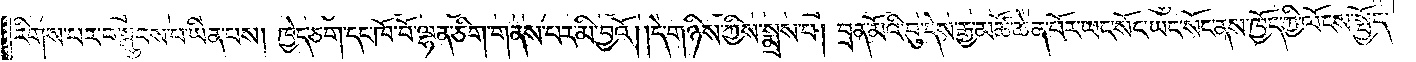རིགས་པར་བསྒྲུབས་པ་ཡིན་པས། ཁྱེད་ཅག་དང་ཁོ་བོ་ལྷན་ཅིག་གནས་པར་མི་བྱའོ། །དེ་གཉིས་ཀྱིས་སྨྲས་པ། བྲན་མོའི་བུ་དེས་རྒྱ་མཚོ་ཆེན་པོར་ཡང་སོང་ཡང་སོང་ནས་ཁྱོད་ཀྱི་ལོངས་སྤྱོད་
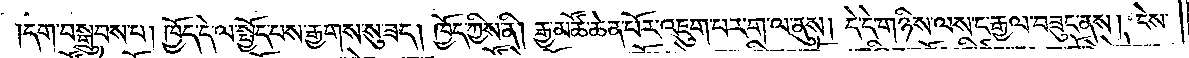དག་བསྒྲུབས་པ། ཁྱོད་དེ་ལ་སྤྱོད་པས་རྒྱགས་སུ་ཟད། ཁྱོད་ཀྱིས་ནི། རྒྱ་མཚོ་ཆེན་པོར་འཇུག་པར་ག་ལ་ནུས། དེ་དེ་གཉིས་ལས་ང་རྒྱལ་བཟུང་ནས། ངེས་
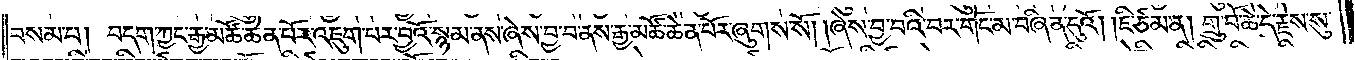བསམ་པ། བདག་ཀྱང་རྒྱ་མཚོ་ཆེན་པོར་འཇུག་པར་བྱའོ་སྙམ་ནས་ཞེས་བྱ་བ་ནས་རྒྱ་མཚོ་ཆེན་པོར་ཞུགས་སོ། །ཞེས་བྱ་བའི་བར་གོང་མ་བཞིན་དུའོ། །ཇི་ཙམ་ན། གྲུ་བོ་ཆེ་དེ་རྗེས་སུ་
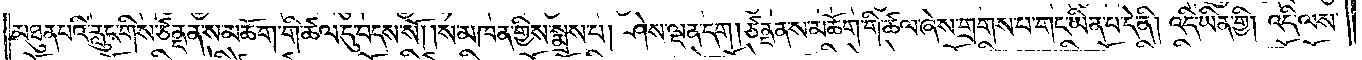མཐུན་པའི་རླུང་གིས་ཙནྡན་ས་མཆོག་གི་ཚལ་དུ་བདས་སོ། །ས་མཁན་གྱིས་སྨྲས་པ། ཤེས་ལྡན་དག །ཙནྡན་ས་མཆོག་གི་ཚལ་ཞེས་གྲགས་པ་གང་ཡིན་པ་དེ་ནི། འདི་ཡིན་གྱི། འདི་ལས་
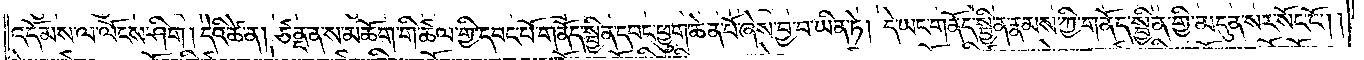འདོམས་ལ་ལོངས་ཤིག །དེའི་ཚེ་ན། ཙནྡན་ས་མཆོག་གི་ཚལ་གྱི་དབང་པོ་གནོད་སྦྱིན་དབང་ཕྱུག་ཆེན་པོ་ཞེས་བྱ་བ་ཡིན་ཏེ། དེ་ཡང་གནོད་སྦྱིན་རྣམས་ཀྱི་གནོད་སྦྱིན་གྱི་མདུན་སར་སོང་ངོ༌། །
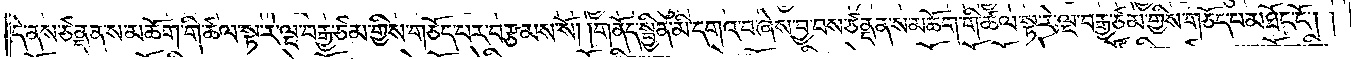དེ་ནས་ཙནྡན་ས་མཆོག་གི་ཚལ་སྟ་རེ་ལྔ་བརྒྱ་ཙམ་གྱིས་གཅོད་པར་བརྩམས་སོ། །གནོད་སྦྱིན་མི་དགའ་བ་ཞེས་བྱ་བས་ཙནྡན་ས་མཆོག་གི་ཚལ་སྟ་རེ་ལྔ་བརྒྱ་ཙམ་གྱིས་གཅོད་པ་མཐོང་ངོ༌། །
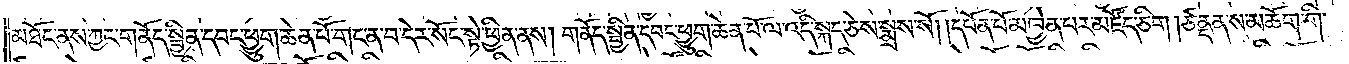མཐོང་ནས་ཀྱང་གནོད་སྦྱིན་དབང་ཕྱུག་ཆེན་པོ་གང་ན་བ་དེར་སོང་སྟེ་ཕྱིན་ནས། གནོད་སྦྱིན་དབང་ཕྱུག་ཆེན་པོ་ལ་འདི་སྐད་ཅེས་སྨྲས་སོ། །དཔོན་པོ་མཁྱེན་པར་མཛོད་ཅིག །ཙནྡན་ས་མཆོག་གི་
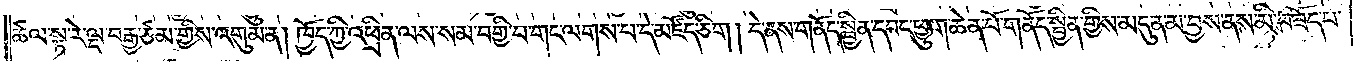ཚལ་སྟ་རེ་ལྔ་བརྒྱ་ཙམ་གྱིས་འགུམ་ན། ཁྱོད་ཀྱི་འཕྲིན་ལས་སམ་བགྱི་བ་གང་ལགས་པ་དེ་མཛོད་ཅིག །དེ་ནས་གནོད་སྦྱིན་དབང་ཕྱུག་ཆེན་པོ་གནོད་སྦྱིན་གྱིས་མདུན་མ་བྱས་ནས་མི་བཟོད་པ་
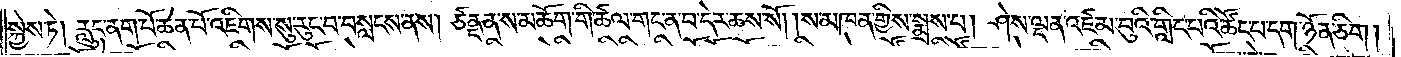སྐྱེས་ཏེ། རླུང་ནག་པོ་ཆེན་པོ་འཇིགས་སུ་རུང་བ་བསླངས་ནས། ཙནྡན་ས་མཆོག་གི་ཚལ་གང་ན་བ་དེར་ཆས་སོ། །ས་མཁན་གྱིས་སྨྲས་པ། ཤེས་ལྡན་འཛམ་བུའི་གླིང་པའི་ཚོང་བ་དག་ཉོན་ཅིག།
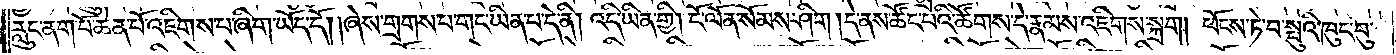རླུང་ནག་པོ་ཆེན་པོ་འཇིགས་པ་ཞིག་ཡོད་དོ། །ཞེས་གྲགས་པ་གང་ཡིན་པ་དེ་ནི། འདི་ཡིན་གྱི། ངོ་ལོན་སོམས་ཤིག །དེ་ནས་ཚོང་པའི་ཚོགས་དེ་རྣམས་འཇིགས་སྐྲག། ཕོངས་ཏེ་བ་སྤུའི་ཁུང་བུ་
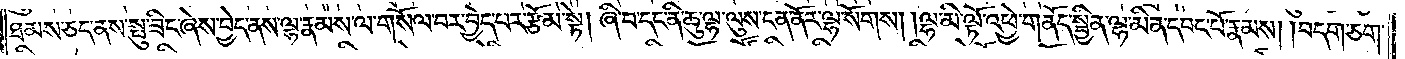ཐམས་ཅད་ནས་སྤུ་ཟིང་ཞེས་བྱེད་ནས་ལྷ་རྣམས་ལ་གསོལ་བར་བྱེད་པར་རྩོམ་སྟེ། ཞི་བ་དང་ནི་ཆུ་ལྷ་ལུས་ངན་ནོར་ལྷ་སོགས། །ལྷ་མི་ལྟོ་འཕྱེ་གནོད་སྦྱིན་ལྷ་མིན་དབང་པོ་རྣམས། །བདག་ཅག་
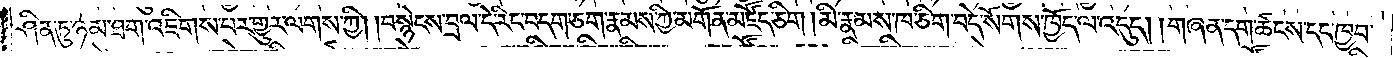ཤིན་ཏུ་ཉམ་ཐག་འཇིགས་པར་གྱུར་ལགས་ཀྱི། །བསྙེངས་བྲལ་དེ་རིང་བདག་ཅག་རྣམས་ཀྱི་མགོན་མཛོད་ཅིག །མི་རྣམས་ཁ་ཅིག་བདེ་སོགས་ཁྱོད་ལ་འདུད། །གཞན་དག་ཚངས་དད་ཁྱབ་
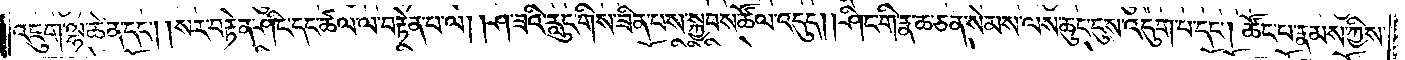འཇུག་ལྷ་ཆེན་དང༌། སར་བརྟེན་ཤིང་དང་ཚལ་ལ་བརྟེན་པ་ལ། །ཤ་ཟའི་རླུང་གིས་ཟིན་པས་སྐྱབས་ཚོལ་འདུད། །ཤིང་གི་རྣ་ཆ་ཅན་སེམས་ལས་ཆུང་ངུས་འདུག་པ་དང༌། ཚོང་པ་རྣམས་ཀྱིས་
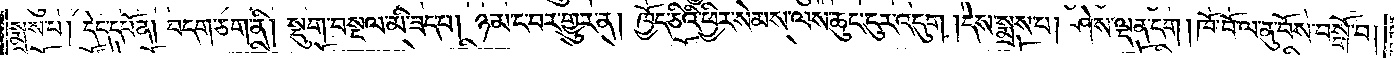སྨྲས་པ། དེད་དཔོན། བདག་ཅག་ནི། སྡུག་བསྔལ་མི་ཟད་པ། ཉམ་ང་བར་གྱུར་ན། ཁྱོད་ཅིའི་ཕྱིར་སེམས་ལས་ཆུང་ངུར་འདུག །དེས་སྨྲས་པ། ཤེས་ལྡན་དག །ཁོ་བོ་ལ་ནུ་བོས་བསྒོ་བ།
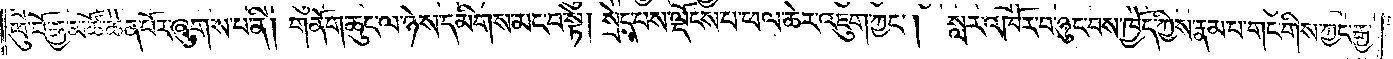ཕུ་བོ་རྒྱ་མཚོ་ཆེན་པོར་ཞུགས་པ་ནི། གནོག་ཆུང་ལ་ཉེས་དམིགས་མང་བ་སྟེ། སྲེད་པས་ལྡོངས་པ་ཕལ་ཆེར་འཇུག་ཀྱང༌། སླར་འཁོར་བ་ཉུང་བས་ཁྱོད་ཀྱིས་རྣམ་པ་གང་གིས་ཀྱང་རྒྱ་
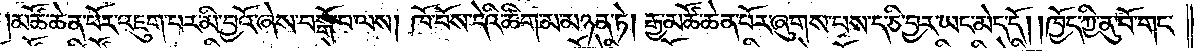།མཚོ་ཆེན་པོར་འཇུག་པར་མི་བྱའོ་ཞེས་བསྒོ་བ་ལས། ཁོ་བོས་དེའི་ཚིག་མ་མཉན་ཏེ། རྒྱ་མཚོ་ཆེན་པོར་ཞུགས་པས་ད་ཅི་བྱར་ཡང་མེད་དོ། །ཁྱོད་ཀྱི་ནུ་བོ་གང་
